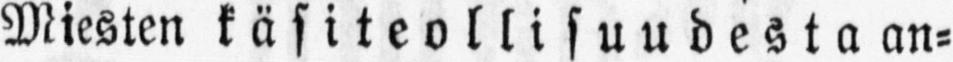Miesten käsiteollisuudesta an-
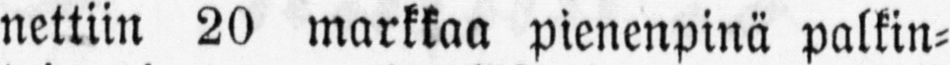nettiin 20 markkaa pienenpinä palkin-
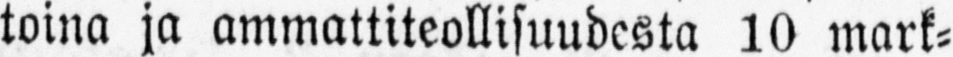toina ja ammattiteollisuudesta 10 mark-
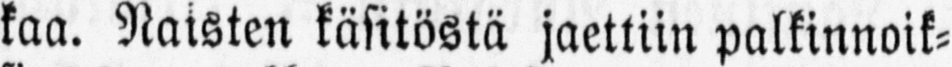kaa. Naisten käsitöstä jaettiin palkinnoik-
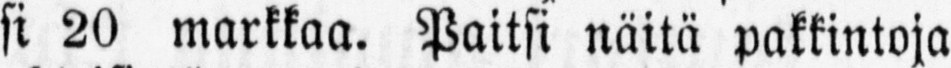si 20 markkaa. Paitsi näitä palkintoja
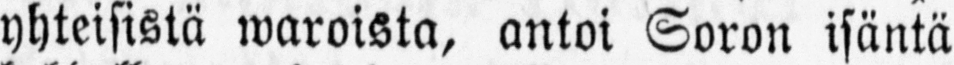yhteisistä waroista, antoi Soron isäntä
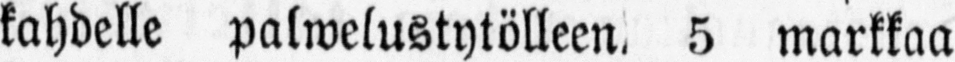kahdelle palwelustytölleen 5 markkaa
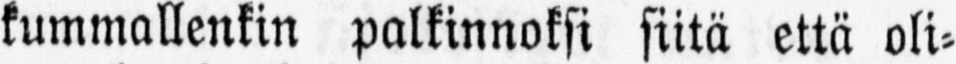kummallenkin palkinnoksi siitä että oli-
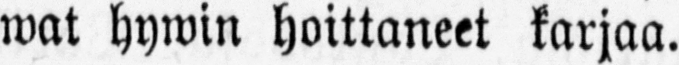wat hywin hoittaneet karjaa.
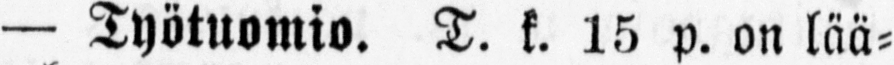— Työtuomio. T. k. 15 p. on lää-
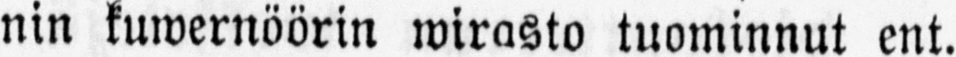nin kuwernöörin wirasto tuominnut ent.
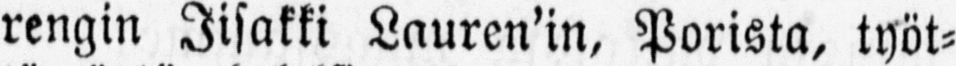rengin Iisakki Lauren'in, Porista, työt-
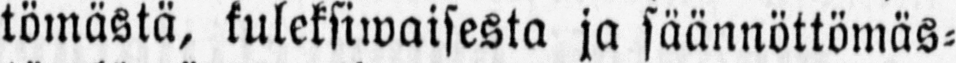tömästä, kuleksiwaisesta ja säännöttömäs-
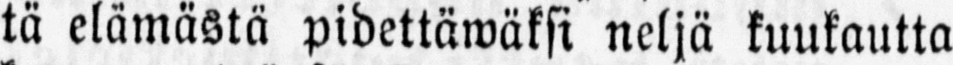tä elämästä pidettäwäksi neljä kuukautta
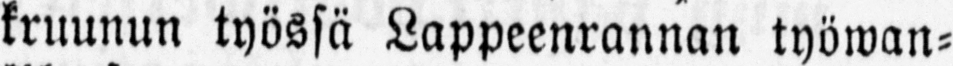kruunun työssä Lappeenrannan työwan-
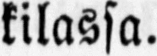kilassa.
